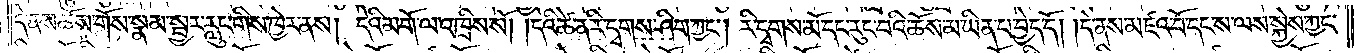དེ་ནས་ཆོས་གོས་སྣམ་སྦྱར་རླུང་གིས་ཁྱེར་ནས། དེའི་མགོ་ལ་འཁྲིས་སོ། །དེའི་ཚེ་ན་རི་དྭགས་ཤིག་ཀྱང༌། རི་དྭགས་མོ་དང་རུང་བའི་ཆོས་མ་ཡིན་པ་བྱེད་དོ། །དེ་ནས་མཛའ་བོ་དང་ས་ལས་སྐྱེས་ཀྱང་
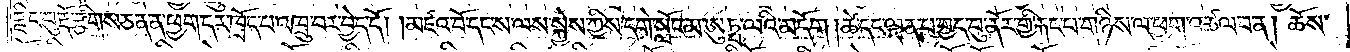རྫིང་བུ་རྡོ་རྩིགས་ཅན་ན་ཕྱག་དར་ཁྲོད་པ་འཁྲུ་བར་བྱེད་དོ། །མཛའ་བོ་དང་ས་ལ་སྐྱེས་ཀྱིས་དགེ་སློང་མ་ཨུཏྤ་ལའི་མདོག །ཚེ་དང་ལྡན་པ་གྱད་བུ་ནོར་གྱི་རྐང་པ་གཉིས་ལ་ཕྱག་འཚལ་བ་ན། ཆོས་
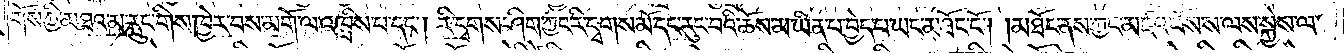གོས་ཀྱི་མཐའ་མ་རླུང་གིས་ཁྱེར་བས་མགོ་ལ་འཁྲིས་པ་དང༌། རི་དྭགས་ཤིག་ཀྱང་རི་དྭགས་མོ་དང་རུང་བའི་ཆོས་མ་ཡིན་པ་བྱེད་པ་ཡང་མཐོང་ངོ༌། །མཐོང་ནས་ཀྱང་མཛའ་བོས་ས་ལས་སྐྱེས་ལ་
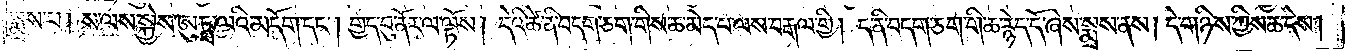སྨྲས་པ། ས་ལས་སྐྱེས་ཨུཏྤ་ལའི་མདོག་དང༌། གྱད་བུ་ནོར་ལ་ལྟས། དེའི་ཚེ་ནི་བདག་ཅག་གིས་ཆ་མེད་པ་ལས་བརྒལ་གྱི། ད་ནི་བདག་ཅག་གི་ཆ་རྙེད་དོ་ཞེས་སྨྲས་ནས། དེ་གཉིས་ཀྱིས་ཆ་དེས།
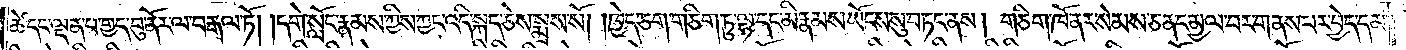ཚེ་དང་ལྡན་པ་གྱད་བུ་ནོར་ལ་བརྒལ་ཏོ། །དགེ་སློང་རྣམས་ཀྱིས་ཀྱང་འདི་སྐད་ཅེས་སྨྲས་སོ། །ཁྱེད་ཅག་གཅིག་ཏུ་ལྷ་དང་མི་རྣམས་ཡོངས་སུ་བཏང་ནས། གཅིག་ཁོ་ནར་སེམས་ཅན་དམྱལ་བར་གནས་པར་བྱེད་དམ་
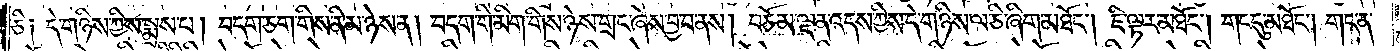ཅི༑ དེ་གཉིས་ཀྱིས་སྨྲས་པ། བདག་ཅག་གིས་ནི་མ་ཉེས་ན། བདག་གི་མིག་གིས་ཉེས་གྲང་ཞེས་བྱ་བ་ནས། བཅོམ་ལྡན་འདས་ཀྱིས་དེ་གཉིས་ལ་ཅི་ཞིག་མཐོང༌། ཇི་ལྟར་མཐོང༌། གང་དུ་མཐོང༌། གང་ན་
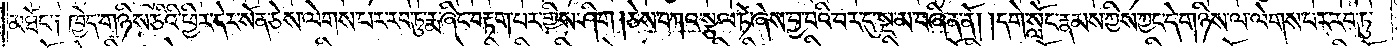མཐོང་༑ ཁྱེད་གཉིས་ཅིའི་ཕྱིར་དེར་སོན་ཅེས་ལེགས་པར་རབ་ཏུ་རྨ་ཞིང་བརྟག་པར་གྱིས་ཤིག །ཅེས་བཀའ་སྩལ་ཏེ་ཞེས་བྱ་བའི་བར་དུ་སྔ་མ་བཞིན་ནོ། །དགེ་སློང་རྣམས་ཀྱིས་ཀྱང་དེ་གཉིས་ལ་ལེགས་པར་རབ་ཏུ་
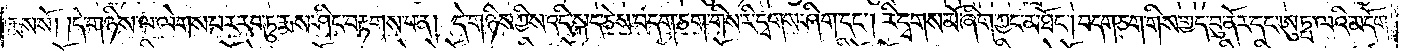རྨས་སོ། །དེ་གཉིས་ལ་ལེགས་པར་རབ་ཏུ་རྨས་ཤིང་བརྟགས་པ་ན། དེ་གཉིས་ཀྱིས་འདི་སྐད་ཅེས་བདག་ཅག་གིས་རི་དྭགས་ཤིག་དང༌། རི་དྭགས་མོ་ཞིག་ཀྱང་མཐོང༌། བདག་ཅག་གིས་གྱད་བུ་ནོར་དང་ཨུཏྤ་ལའི་མདོག་
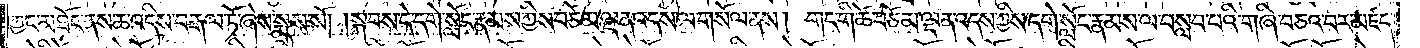ཀྱང་མཐོང་ནས་ཆ་འདིས་བརྒལ་ཏོ་ཞེས་སྨྲས་སོ། །སྐབས་དེ་དགེ་སློང་རྣམས་ཀྱིས་བཅོམ་ལྡན་འདས་ལ་གསོལ་ནས། གང་གི་ཚེ་བཅོམ་ལྡན་འདས་ཀྱིས་དགེ་སློང་རྣམས་ལ་བསླབ་པའི་གཞི་བཅའ་བར་མཛད་
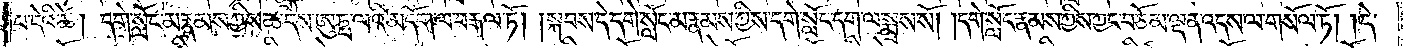བ་དེའི་ཚེ། དགེ་སློང་མ་རྣམས་ཀྱིས་ཆ་དེས་ཨུཏྤ་ལའི་མདོག་ལ་བརྒལ་ཏོ། །སྐབས་དེ་དགེ་སློང་མ་རྣམས་ཀྱིས་དགེ་སློང་དག་ལ་སྨྲས་སོ། །དགེ་སློང་རྣམས་ཀྱིས་ཀྱང་བཅོམ་ལྡན་འདས་ལ་གསོལ་ཏོ། །དེ་
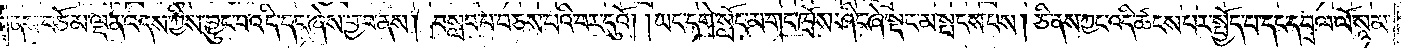ནས་བཅོམ་ལྡན་འདས་ཀྱིས་བྱུང་བ་འདི་དང་ཞེས་བྱ་བ་ནས། བསླབ་པ་བཅས་པའི་བར་དུའོ། ། ཡང་དགེ་སློང་མ་གང་ཁྲོས་ཤིང་ཞེ་སྡང་མ་སྤངས་པས། ཅི་ནས་ཀྱང་འདི་ཚངས་པར་སྤྱོད་པ་དང་དབྲལ་ལོ་སྙམ་
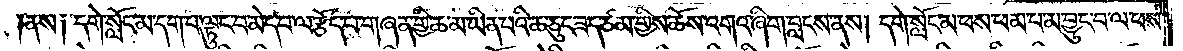ནས༑ དགེ་སློང་མ་དག་པ་ལྟུང་བ་མེད་པ་ལ་རྩོད་པ་གཞན་གྱི་ཆ་མ་ཡིན་པའི་ཆ་ཅུང་ཟད་ཙམ་གྱིས་ཆོས་འགའ་ཞིག་བླངས་ནས། དགེ་སློང་མ་ཕས་ཕམ་པ་མ་བྱུང་བ་ལ་ཕས་
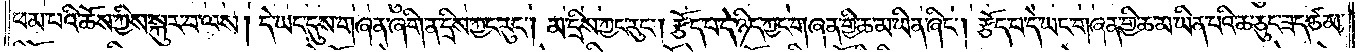ཕམ་པའི་ཆོས་ཀྱིས་སྐུར་པ་ལས། དེ་ཡང་དུས་གཞན་ཞིག་ན་དྲིས་ཀྱང་རུང༌། མ་དྲིས་ཀྱང་རུང༌། རྩོད་པ་དེ་ཉིད་ཀྱང་གཞན་གྱི་ཆ་མ་ཡིན་ཞིང༌། རྩོད་པ་དེ་ཡང་གཞན་གྱི་ཆ་མ་ཡིན་པའི་ཆ་ཅུང་ཟད་ཙམ་
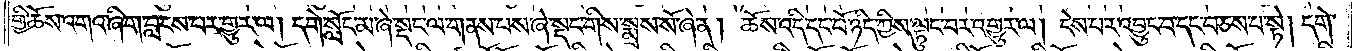གྱི་ཆོས་འགའ་ཞིག་བླངས་པར་གྱུར་ལ། དགེ་སློང་མ་ཞེ་སྡང་ལ་གནས་པས་ཞེ་སྡང་གིས་སྨྲས་སོ་ཞེ་ན། ཆོས་འདི་དང་པོ་ཉིད་ཀྱིས་ལྟུང་བར་འགྱུར་ལ། ངེས་པར་འབྱུང་བ་དང་བཅས་པ་སྟེ། དགེ་
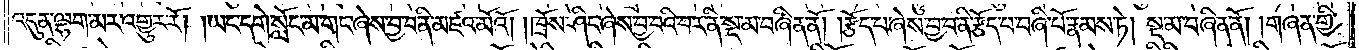འདུན་ལྷག་མར་འགྱུར་རོ། །ཡང་དགེ་སློང་མ་གང་ཞེས་བྱ་བ་ནི་མཛའ་མོའོ། །ཁྲོས་ཤིང་ཞེས་བྱ་བའི་བར་ནི་སྔ་མ་བཞིན་ནོ། །རྩོད་པ་ཞེས་བྱ་བ་ནི་རྩོད་པ་བཞི་པོ་རྣམས་ཏེ། སྔ་མ་བཞིན་ནོ། །གཞན་གྱི་
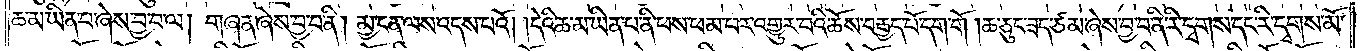ཆ་མ་ཡིན་པ་ཞེས་བྱ་བ་ལ། གཞན་ཞེས་བྱ་བ་ནི། མྱ་ངན་ལས་འདས་པའོ། །དེའི་ཆ་མ་ཡིན་པ་ནི་ཕས་ཕམ་པར་འགྱུར་བའི་ཆོས་བརྒྱད་པོ་དག་གོ །ཆ་ཅུང་ཟད་ཙམ་ཞེས་བྱ་བ་ནི་རི་དྭགས་དང་རི་དྭགས་མོ་
